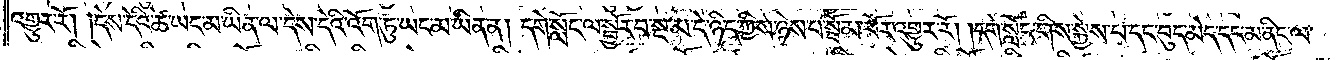འགྱུར་རོ། །དེས་དེའི་ཚེ་ཡང་མ་ཡིན་ལ་དེས་དེའི་འོག་ཏུ་ཡང་མ་ཡིན་ན། དགེ་སློང་ལ་སྦྱོར་བ་སྔ་མ་དེ་ཉིད་ཀྱིས་ཉེས་པ་སྦོམ་པོར་འགྱུར་རོ། །དགེ་སློང་གིས་སྐྱེས་པ་དང་བུད་མེད་དང་མ་ནིང་ལ་
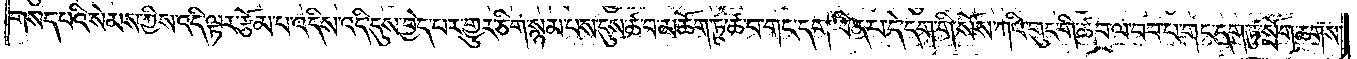གསད་པའི་སེམས་ཀྱིས་འདི་ལྟར་རྩོམ་པ་འདིས་འདི་དུས་བྱེད་པར་གྱུར་ཅིག་སྙམ་པས་དུས་ཚ་བ་མཆོག་ཏུ་ཚ་བ་གང་དག་ཡིན་པ་དེ་དག་གིས་སོས་ཀའི་གུང་གི་ཚབ་ལ་བབ་པ་གང་དག་ཏུ་སྲོག་ཆགས་
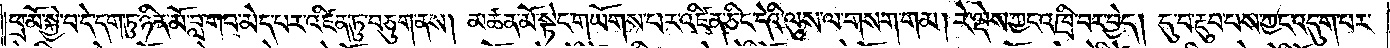ཕྲ་མོ་སྐྱེ་བ་དེ་དག་ཏུ་ཉིན་མོ་བླ་གབ་མེད་པར་འཛིན་ཏུ་བཅུག་ནས། མཚན་མོ་སྟེང་གཡོགས་པར་འཛིན་ཅིང་དེའི་ལུས་ལ་གསག་གམ། རེ་ལྡེས་ཀྱང་འཁྲི་བར་བྱེད། དུ་བ་རྔུབ་པས་ཀྱང་འདུག་པར་
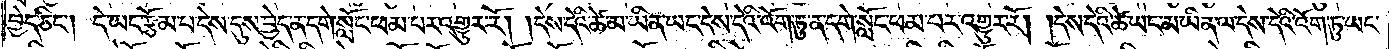བྱེད་ཅིང༌། དེ་ཡང་རྩོམ་པ་དེས་དུས་བྱེད་ན་དགེ་སློང་ཕམ་པར་འགྱུར་རོ། །དེས་དེའི་ཚེ་མ་ཡིན་ཡང་དེས་དེའི་འོག་ཏུ་ན་དགེ་སློང་ཕམ་པར་འགྱུར་རོ། །དེས་དེའི་ཚེ་ཡང་མ་ཡིན་ལ་དེས་དེའི་འོག་ཏུ་ཡང་
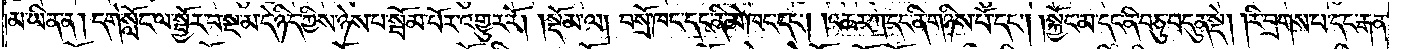མ་ཡིན་ན། དགེ་སློང་ལ་སྦྱོར་བ་སྔ་མ་དེ་ཉིད་ཀྱིས་ཉེས་པ་སྦོམ་པོར་འགྱུར་རོ། །སྡོམ་ལ། བསྲོ་ཁང་དང་ནི་མེ་ཁང་དང༌། །འཆར་ཀ་དང་ནི་གཉིས་པོ་དང༌། །སྐྱོང་མ་དང་ནི་བཅུ་བདུན་སྡེ། །རི་བྲགས་པ་དང་རྒན་
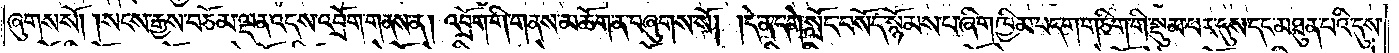ཞུགས་སོ། །སངས་རྒྱས་བཅོམ་ལྡན་འདས་འབྲོག་གནས་ན། འབྲོག་གི་གནས་མཆོག་ན་བཞུགས་སོ། །དེ་ན་དགེ་སློང་བསོད་སྙོམས་པ་ཞིག་ཁྱིམ་བདག་གཅིག་གི་སྡུམ་པར་དུས་དང་མཐུན་པའི་དུས་
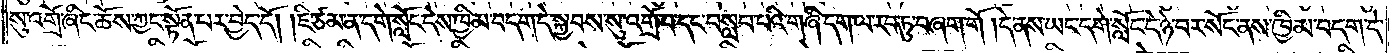སུ་འགྲོ་ཞིང་ཆོས་ཀྱང་སྟོན་པར་བྱེད་དོ། །ཇི་ཙམ་ན་དགེ་སློང་དེས་ཁྱིམ་བདག་དེ་སྐྱབས་སུ་འགྲོ་བ་དང་བསླབ་པའི་གཞི་དག་ལ་རབ་ཏུ་བཞག་གོ །དེ་ནས་ཡང་དགེ་སློང་དེ་ཉེ་བར་སོང་ནས་ཁྱིམ་བདག་དེ་
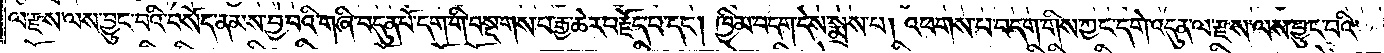ལ་རྫས་ལས་བྱུང་བའི་བསོད་ནམས་བྱ་བའི་གཞི་བདུན་པོ་དག་གིས་བསྔགས་པ་རྒྱ་ཆེར་བརྗོད་པ་དང༌། ཁྱིམ་བདག་དེས་སྨྲས་པ། འཕགས་པ་བདག་གིས་ཀྱང་དགེ་འདུན་ལ་རྫས་ལས་བྱུང་བའི་
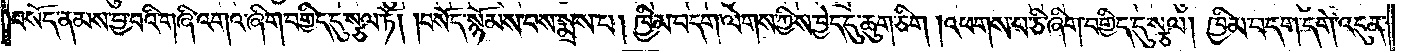བསོད་ནམས་བྱ་བའི་གཞི་འགའ་ཞིག་བགྱིད་དུ་སྩལ་ཏོ། །བསོད་སྙོམས་པས་སྨྲས་པ། ཁྱིམ་བདག་ལེགས་ཀྱིས་བྱེད་དུ་ཆུག་ཅིག །འཕགས་པ་ཅི་ཞིག་བགྱིད་དུ་སྩལ། ཁྱིམ་བདག་དགེ་འདུན་
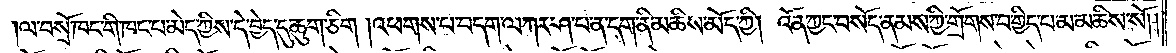།ལ་བསྲོ་ཁང་གི་ཁང་པ་མེད་ཀྱིས་དེ་བྱེད་དུ་ཆུག་ཅིག །འཕགས་པ་བདག་ལ་ཀར་ཤ་པ་ན་དག་ནི་མཆིས་མོད་ཀྱི། འོན་ཀྱང་བསོད་ནམས་ཀྱི་གྲོགས་བགྱིད་པ་མ་མཆིས་སོ། །
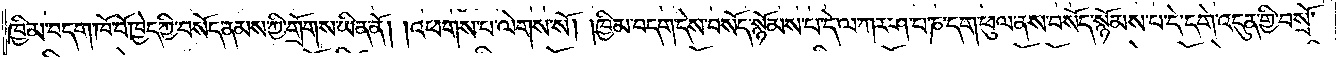ཁྱིམ་བདག་ཁོ་བོ་ཁྱེད་ཀྱི་བསོད་ནམས་ཀྱི་གྲོགས་ཡིན་ནོ། །འཕགས་པ་ལེགས་སོ། །ཁྱིམ་བདག་དེས་བསོད་སྙོམས་པ་དེ་ལ་ཀར་ཤ་པ་ཎ་དག་ཕུལ་ནས་བསོད་སྙོམས་པ་དེ་དགེ་འདུན་གྱི་བསྲོ་
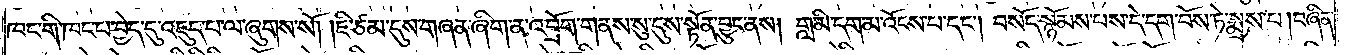ཁང་གི་ཁང་པ་བྱེད་དུ་འཇུད་པ་ལ་ཞུགས་སོ། །ཇི་ཙམ་དུས་གཞན་ཞིག་ན་འབྲོག་གནས་སུ་དུས་སྟོན་བྱུང་ནས། གླ་མི་དག་མ་འོངས་པ་དང༌། བསོད་སྙོམས་པས་དེ་དག་བོས་ཏེ་སྨྲས་པ། བཞིན་
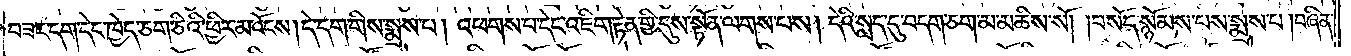བཟང་དག་དེང་ཁྱེད་ཅག་ཅིའི་ཕྱིར་མ་འོངས། དེ་དག་གིས་སྨྲས་པ། འཕགས་པ་དེང་འཇིག་རྟེན་གྱི་དུས་སྟོན་ལགས་པས། དེའི་སླད་དུ་བདག་ཅག་མ་མཆིས་སོ། །བསོད་སྙོམས་པས་སྨྲས་པ། བཞིན་
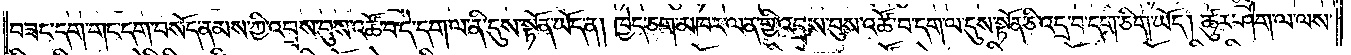བཟང་དག་གང་དག་བསོད་ནམས་ཀྱི་འབྲས་བུས་འཚོ་བ་དེ་དག་ལ་ནི་དུས་སྟོན་ཡོད་ན། ཁྱེད་ཅག་མཁར་ལན་གྱི་འབྲས་བུས་འཚོ་བ་དག་ལ་དུས་སྟོན་ཅི་འདྲ་བ་དག་ཅིག་ཡོད། ཚུར་ཤོག་ལ་ལས་
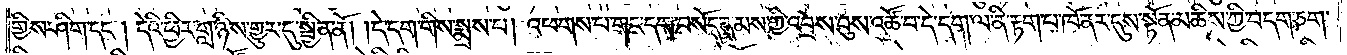གྱིས་ཤིག་དང༌། དེའི་ཕྱིར་གླ་ཉིས་གྱུར་དུ་སྦྱིན་ནོ། །དེ་དག་གིས་སྨྲས་པ། འཕགས་པ་གང་དག་བསོད་ནམས་ཀྱི་འབྲས་བུས་འཚོ་བ་དེ་དག་ལ་ནི་རྟག་པ་ཁོ་ནར་དུས་སྟོན་མཆིས་ཀྱི་བདག་ཅག་
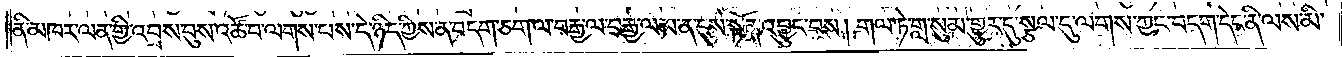ནི་མཁར་ལན་གྱི་འབྲས་བུས་འཚོ་བ་ལགས་པས་དེ་ཉིད་ཀྱིས་ན་བདག་ཅག་ལ་བརྒྱ་ལ་བརྒྱ་ལམ་ན་དུས་སྟོན་འབྱུང་བས། གལ་ཏེ་གླ་སུམ་གྱུར་དུ་སྩལ་དུ་ལགས་ཀྱང་བདག་དེང་ནི་ལས་མི་
